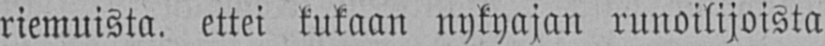riemuista. ettei kukaan nykyajan runoilijoista
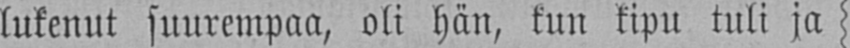lukenut suurempaa, oli hän, kun kipu tuli ja
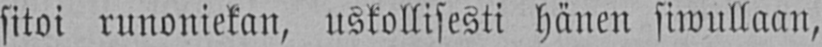sitoi runoniekan, uskollisesti hänen siwullaan,
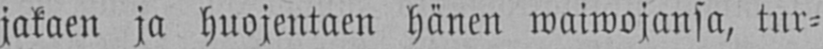jakaen ja huojentaen hänen waiwojansa, tur-
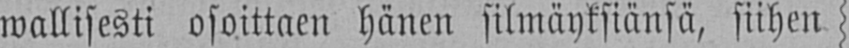wallisesti osoittaen hänen silmäyksiänsä, siihen
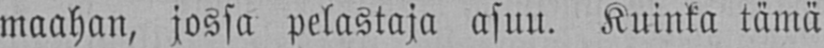maahan, jossa pelastaja asuu. Kuinka tämä
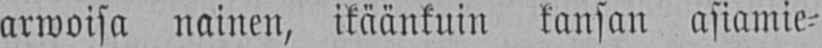arwoisa nainen, ikäänkuin kansan asiame-
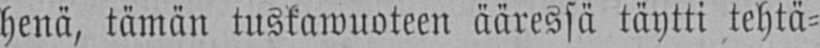henä, tämän tuskawuoteen ääressä täytti tehtä-
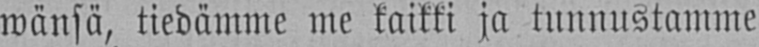wänsä, tiedämme me kaikki ja tunnustamme-
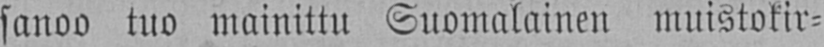sanoo tuo mainittu Suomalainen muistokir-
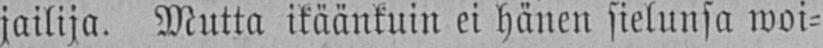jailija. Mutta ikäänkuin ei hänen sielunsa woi-
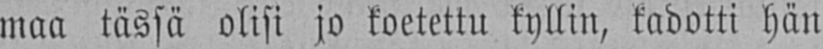maa tässä olisi jo koetettu kyllin, kadotti hän
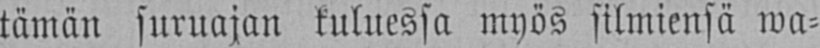tämän suruajan kuluessa myös silmiensä wa-
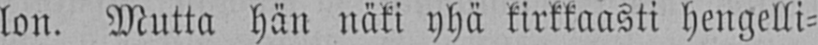lon. Mutta hän näki yhä kirkkaasti hengelli-
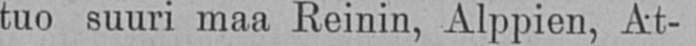Koko tuo suuri maa Roinin, Alppien, At-
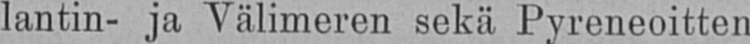lantin- ja Välimeren sekä Pyreneoitten
